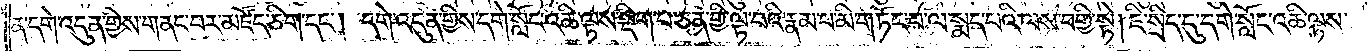ན་དགེ་འདུན་གྱིས་གནང་བར་མཛོད་ཅིག་དང༌། དགེ་འདུན་གྱིས་དགེ་སློང་འཆི་ལྟས་སྡིག་པ་ཅན་གྱི་ལྟ་བའི་རྣམ་པ་མི་གཏོང་བ་ལ་སྨད་པའི་ལས་བགྱི་སྟེ། ཇི་སྲིད་དུ་དགེ་སློང་འཆི་ལྟས་
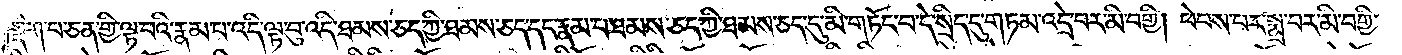སྡིག་པ་ཅན་གྱི་ལྟ་བའི་རྣམ་པ་འདི་ལྟ་བུ་འདི་ཐམས་ཅད་ཀྱི་ཐམས་ཅད་དང་རྣམ་པ་ཐམས་ཅད་ཀྱི་ཐམས་ཅད་དུ་མི་གཏོང་བ་དེ་སྲིད་དུ་གཏམ་འདྲེ་བར་མི་བགྱི། ཕེབས་པར་སྨྲ་བར་མི་བགྱི་
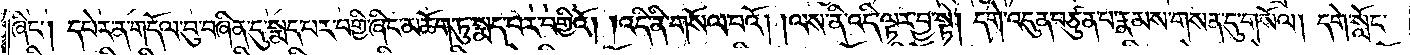ཞིང༌། དཔེར་ན་གདོལ་བུ་བཞིན་དུ་སྨད་པར་བགྱི་ཞིང་མཆོག་ཏུ་སྨད་པར་བགྱིའོ། །འདི་ནི་གསོལ་བའོ། །ལས་ནི་འདི་ལྟར་བྱ་སྟེ། དགེ་འདུན་བཙུན་པ་རྣམས་གསན་དུ་གསོལ། དགེ་སློང་
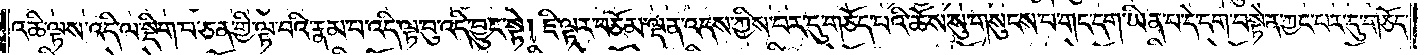འཆི་ལྟས་འདི་ལ་སྡིག་པ་ཅན་གྱི་ལྟ་བའི་རྣམ་པ་འདི་ལྟ་བུ་འདི་བྱུང་སྟེ། ཇི་ལྟར་བཅོམ་ལྡན་འདས་ཀྱིས་བར་དུ་གཅོད་པའི་ཆོས་སུ་གསུངས་པ་གང་དག་ཡིན་པ་དེ་དག་བསྟེན་ཀྱང་པར་དུ་གཅོད་
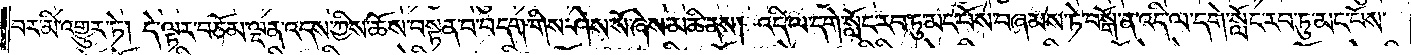བར་མི་འགྱུར་ཏེ། དེ་ལྟར་བཅོམ་ལྡན་འདས་ཀྱིས་ཆོས་བསྟན་པ་བདག་གིས་ཤེས་སོ་ཞེས་མཆི་ནས། འདི་ལ་དགེ་སློང་རབ་ཏུ་མང་པོས་བཞམས་ཏེ་བསྒོ་ན་འདི་ལ་དགེ་སློང་རབ་ཏུ་མང་པོས་
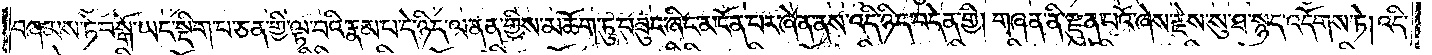བཞམས་ཏེ་བསྒོ་ཡང་སྡིག་པ་ཅན་གྱི་ལྟ་བའི་རྣམ་པ་དེ་ཉིད་ལ་ནན་གྱིས་མཆོག་ཏུ་བཟུང་ཞིང་མངོན་པར་ཞེན་ནས་འདི་ཉིད་བདེན་གྱི། གཞན་ནི་རྫུན་བའོ་ཞེས་རྗེས་སུ་ཐ་སྙད་འདོགས་ཏེ། འདི་
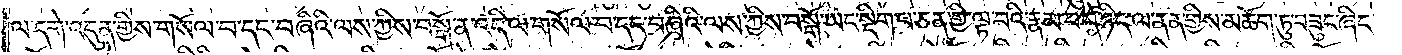ལ་དགེ་འདུན་གྱིས་གསོལ་བ་དང་བཞིའི་ལས་ཀྱིས་བསྒོ་ན་འདི་ལ་གསོལ་བ་དང་བཞིའི་ལས་ཀྱིས་བསྒོ་ཡང་སྡིག་པ་ཅན་གྱི་ལྟ་བའི་རྣམ་པ་དེ་ཉིད་ལ་ནན་གྱིས་མཆོག་ཏུ་བཟུང་ཞིང་
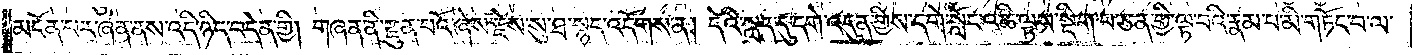མངོན་པར་ཞེན་ནས་འདི་ཉིད་བདེན་གྱི། གཞན་ནི་རྫུན་པའོ་ཞེས་རྗེས་སུ་ཐ་སྙད་འདོགས་ན། དེའི་སླད་དུ་དགེ་འདུན་གྱིས་དགེ་སློང་འཆི་ལྟས་སྡིག་པ་ཅན་གྱི་ལྟ་བའི་རྣམ་པ་མི་གཏོང་བ་ལ་
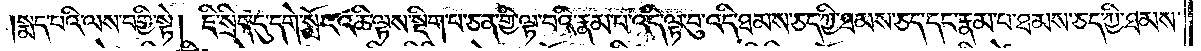སྨད་པའི་ལས་བགྱི་སྟེ། ཇི་སྲིད་དུ་དགེ་སློང་འཆི་ལྟས་སྡིག་པ་ཅན་གྱི་ལྟ་བའི་རྣམ་པ་འདི་ལྟ་བུ་འདི་ཐམས་ཅད་ཀྱི་ཐམས་ཅད་དང་རྣམ་པ་ཐམས་ཅད་ཀྱི་ཐམས་
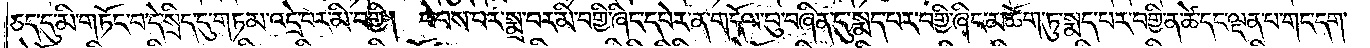ཅད་དུ་མི་གཏོང་བ་དེ་སྲིད་དུ་གཏམ་འདྲེ་བར་མི་བགྱི། ཕེབས་པར་སྨྲ་བར་མི་བགྱི་ཞིང་དཔེར་ན་གདོལ་བུ་བཞིན་དུ་སྨད་པར་བགྱི་ཞིང་མཆོག་ཏུ་སྨད་པར་བགྱི་ན་ཚེ་དང་ལྡན་པ་གང་དག་
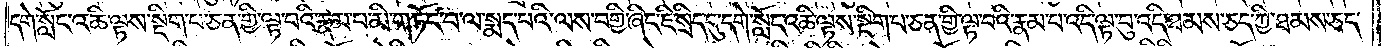དགེ་སློང་འཆི་ལྟས་སྡིག་པ་ཅན་གྱི་ལྟ་བའི་རྣམ་པ་མི་གཏོང་བ་ལ་སྨད་པའི་ལས་བགྱི་ཞིང་ཇི་སྲིད་དུ་དགེ་སློང་འཆི་ལྟས་སྡིག་པ་ཅན་གྱི་ལྟ་བའི་རྣམ་པ་འདི་ལྟ་བུ་འདི་ཐམས་ཅད་ཀྱི་ཐམས་ཅད་
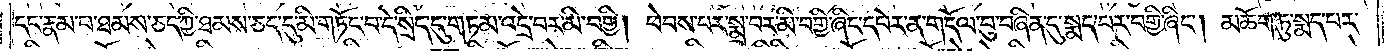དང་རྣམ་པ་ཐམས་ཅད་ཀྱི་ཐམས་ཅད་དུ་མི་གཏོང་བ་དེ་སྲིད་དུ་གཏམ་འདྲེ་བར་མི་བགྱི། ཕེབས་པར་སྨྲ་བར་མི་བགྱི་ཞིང་དཔེར་ན་གདོལ་བུ་བཞིན་དུ་སྨད་པར་བགྱི་ཞིང༌། མཆོག་ཏུ་སྨད་པར་
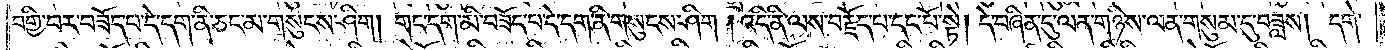བགྱི་བར་བཟོད་པ་དེ་དག་ནི་ཅང་མ་གསུངས་ཤིག། གང་དག་མི་བཟོད་པ་དེ་དག་ནི་གསུངས་ཤིག །འདི་ནི་ལས་བརྗོད་པ་དང་པོ་སྟེ། དེ་བཞིན་དུ་ལན་གཉིས་ལན་གསུམ་དུ་བཟླས། དགེ་
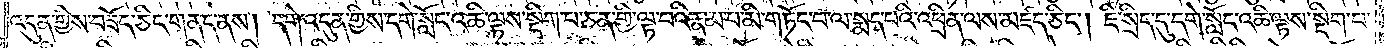འདུན་གྱིས་བཟོད་ཅིང་གནད་ནས། དགེ་འདུན་གྱིས་དགེ་སློང་འཆི་ལྟས་སྡིག་པ་ཅན་གྱི་ལྟ་བའི་རྣམ་པ་མི་གཏོང་བ་ལ་སྨད་པའི་འཕྲིན་ལས་མཛད་ཅིང༌། ཇི་སྲིད་དུ་དགེ་སློང་འཆི་ལྟས་སྡིག་པ་
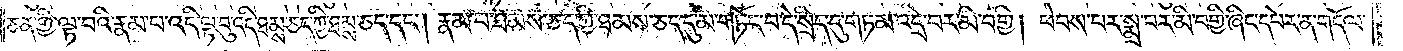ཅན་གྱི་ལྟ་བའི་རྣམ་པ་འདི་ལྟ་བུ་འདི་ཐམས་ཅད་ཀྱི་ཐམས་ཅད་དང༌། རྣམ་པ་ཐམས་ཅད་ཀྱི་ཐམས་ཅད་དུ་མི་གཏོང་བ་དེ་སྲིད་དུ་གཏམ་འདྲེ་བར་མི་བགྱི། ཕེབས་པར་སྨྲ་བར་མི་བགྱི་ཞིང་དཔེར་ན་གདོལ་
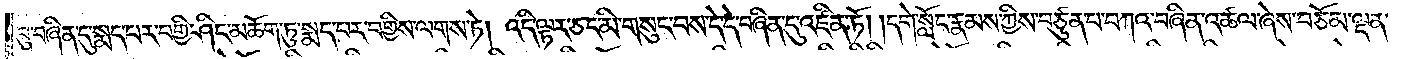བུ་བཞིན་དུ་སྨད་པར་བགྱི་ཤིང་མཆོག་ཏུ་སྨད་པར་བགྱིས་ལགས་ཏེ། འདི་ལྟར་ཅང་མི་གསུང་བས་དེ་དེ་བཞིན་དུ་འཛིན་ཏོ། །དགེ་སློང་རྣམས་ཀྱིས་བཙུན་པ་བཀའ་བཞིན་འཚལ་ཞེས་བཅོམ་ལྡན་
